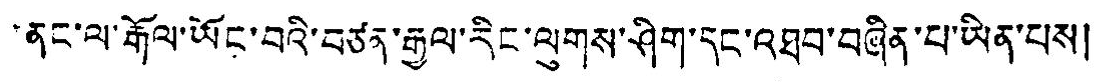ནང་ལ་རྒོལ་ཡོང་བའི་བཙན་རྒྱལ་རིང་ལུགས་ཤིག་དང་འཐབ་བཞིན་པ་ཡིན་པས།
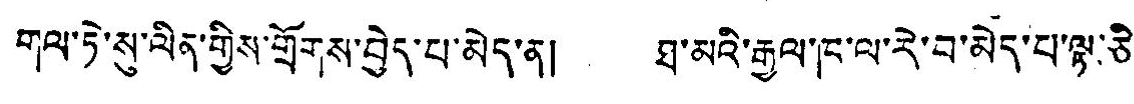གལ་ཏེ་སུ་ལིན་གྱིས་གྲོགས་བྱེད་པ་མེད་ན། ཐ་མའི་རྒྱལ་ང་ལ་རེ་བ་མེད་པ་ལྟ་ཅི་
